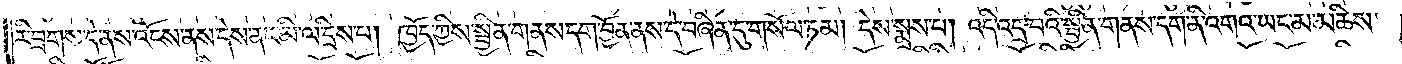རི་བྲགས་དེ་ནས་འོངས་ནས་དེས་ནང་མི་ལ་དྲིས་པ། ཁྱོད་ཀྱིས་སྦྱིན་གནས་དག་བྱོན་ནས་དེ་བཞིན་དུ་གསོལ་ཏམ། དེས་སྨྲས་པ། འདི་འདྲ་བའི་སྦྱིན་གནས་དག་ནི་འགའ་ཡང་མ་མཆིས་
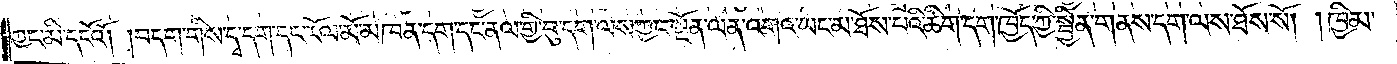ཀྱང་མི་དངོའོ། །བདག་གིས་དྭ་དག་དང་རོལ་མོ་མཁན་དག་དང་ནལ་གྱི་བུ་དག་ལས་ཀྱང་སྔོན་ལན་འགའ་ཡང་མ་ཐོས་པའི་ཚིག་དག་ཁྱོད་ཀྱི་སྦྱིན་གནས་དག་ལས་ཐོས་སོ། །ཁྱིམ་
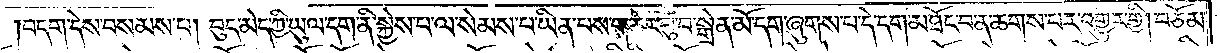བདག་དེས་བསམས་པ། བུད་མེད་ཀྱི་ཡུལ་དག་ནི་སྐྱེས་པ་ལ་སེམས་པ་ཡིན་པས་གཅེར་བུ་བ་སྒྲེན་མོ་དག་ཞུགས་པ་དེ་དག་མཐོང་བ་ན་ཆགས་པར་འགྱུར་གྱི། བཅོམ་
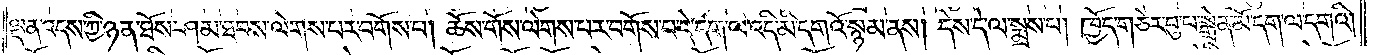ལྡན་འདས་ཀྱི་ཉན་ཐོས་ཤམ་ཐབས་ལེགས་པར་བགོས་པ། ཆོས་གོས་ལེགས་པར་བགོས་པ་དེ་དག་ལ་འདི་མི་དགའོ་སྙམ་ནས། དེས་དེ་ལ་སྨྲས་པ། ཁྱོད་གཅེར་བུ་པ་སྒྲེན་མོ་དག་ལ་དགའི།
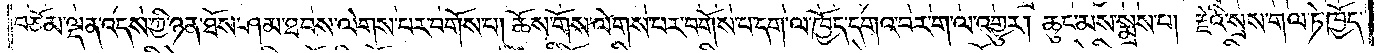བཅོམ་ལྡན་འདས་ཀྱི་ཉན་ཐོས་ཤམ་ཐབས་ལེགས་པར་བགོས་པ། ཆོས་གོས་ལེགས་པར་བགོས་པ་དག་ལ་ཁྱོད་དགའ་བར་ག་ལ་འགྱུར། ཆུང་མས་སྨྲས་པ། རྗེའི་སྲས་གལ་ཏེ་ཁྱོད་
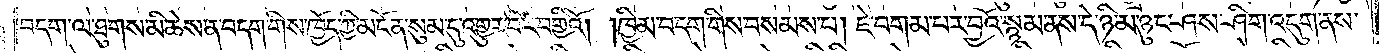བདག་ལ་ཐུགས་མི་ཆེས་ན་བདག་གིས་ཁྱོད་ཀྱི་མངོན་སུམ་དུ་འགྱུར་བར་བགྱིའོ། །ཁྱིམ་བདག་གིས་བསམས་པ། ཇེ་བགམ་པར་བྱའོ་སྙམ་ནས་དེ་ཉི་མ་ཉུང་ཤས་ཤིག་འདུག་ནས་
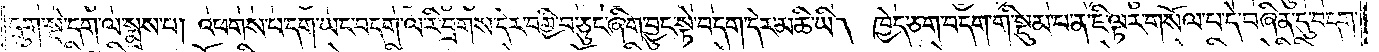དྲུག་སྡེ་དག་ལ་སྨྲས་པ། འཕགས་པ་དག་ཡང་བདག་ལ་རི་བྲགས་དེར་བགྱི་བ་ཅུང་ཞིག་བྱུང་སྟེ་བདག་དེར་མཆི་ཡི། ཁྱེད་ཅག་བདག་གི་སྡུམ་པ་ན་ཇི་ལྟར་གསོལ་བ་དེ་བཞིན་དུ་བདག་
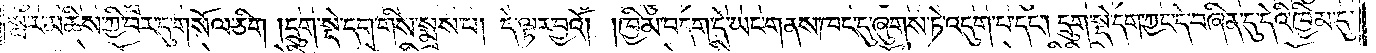སླར་མཆིས་ཀྱི་བར་དུ་གསོལ་ཅིག །དྲུག་སྡེ་དག་གིས་སྨྲས་པ། དེ་ལྟར་བྱའོ། །ཁྱིམ་བདག་དེ་ཡང་གནས་ཁང་དུ་ཞུགས་ཏེ་འདུག་པ་དང༌། དྲུག་སྡེ་དག་ཀྱང་དེ་བཞིན་དུ་དེའི་ཁྱིམ་དུ་
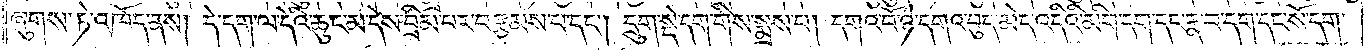ཞུགས་ཏེ་འཁོད་ནས། དེ་དག་ལ་དེའི་ཆུང་མ་དེས་བྲིམ་པར་བརྩམས་པ་དང༌། དྲུག་སྡེ་དག་གིས་སྨྲས་པ། དགའ་བོ་ཉེ་དགའ་བུད་མེད་འདིའི་མིག་དག་དང་རྣ་བ་དག་དང་སོ་དག་
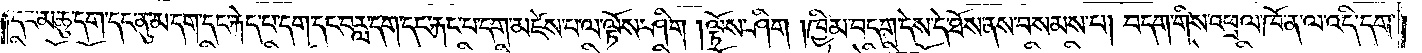དང་མཆུ་དག་དང་ནུ་མ་དག་དང་རྐེད་པ་དག་དང་བརླ་དག་དང་རྐང་པ་དག་མཛེས་པ་ལ་ལྟོས་ཤིག །ལྟོས་ཤིག །ཁྱིམ་བདག་དེས་དེ་ཐོས་ནས་བསམས་པ། བདག་གིས་འཕྲལ་ཁོ་ན་ལ་འདི་དག་
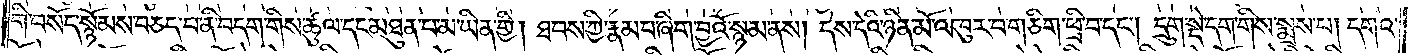གི་བསོད་སྙོམས་བཅད་པ་ནི་བདག་གིས་ཚུལ་དང་མཐུན་པ་མ་ཡིན་གྱི། ཐབས་ཀྱི་རྣམ་པ་ཞིག་བྱའོ་སྙམ་ནས། དེས་དེའི་ཉིན་མོ་འཁུར་བ་གཅིག་ཕྲི་བ་དང༌། དྲུག་སྡེ་དག་གིས་སྨྲས་པ། དགའ་
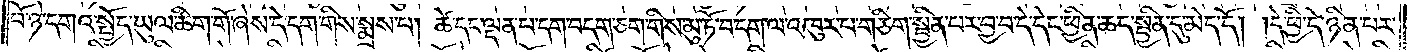བོ་ཉེ་དགའ་སྤྱོད་ཡུལ་ཚིག་གོ་ཞེས་དེ་དག་གིས་སྨྲས་པ། ཚེ་དང་ལྡན་པ་དག་བདག་ཅག་གིས་མུ་ཏོ་བ་དག་ལ་འཁུར་པ་གཅིག་སྦྱིན་པར་བྱ་བ་དེ་དེང་ཕྱིན་ཆད་སྦྱིན་དུ་མེད་དོ། །དེ་ཕྱི་དེ་ཉིན་པར་
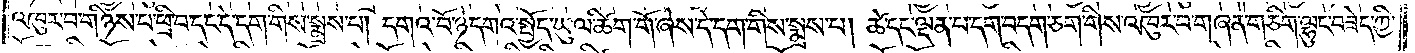འཁུར་བ་གཉིས་པ་ཕྲི་བ་དང་དེ་དག་གིས་སྨྲས་པ། དགའ་བོ་ཉེ་དགའ་སྤྱོད་ཡུལ་ཚིག་གོ་ཞེས་དེ་དག་གིས་སྨྲས་པ། ཚེ་དང་ལྡན་པ་དག་བདག་ཅག་གིས་འཁུར་བ་གཞན་གཅིག་ལྷུང་བཟེད་ཀྱི་
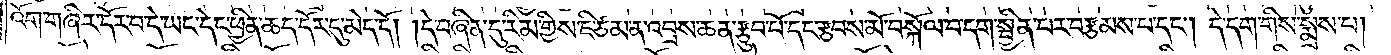འོག་གཞིར་དོར་བ་དེ་ཡང་དེང་ཕྱིན་ཆད་དོར་དུ་མེད་དོ། །དེ་བཞིན་དུ་རིམ་གྱིས་ཇི་ཙམ་ན་འབྲས་ཆན་རྩུབ་པོ་དང་རྩབས་མོ་བསྐོལ་བ་དག་སྦྱིན་པར་བརྩམས་པ་དང༌། དེ་དག་གིས་སྨྲས་པ།
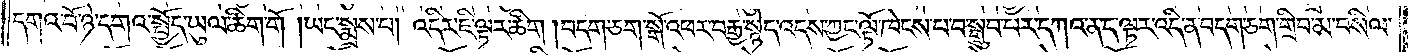དགའ་བོ་ཉེ་དགའ་སྤྱོད་ཡུལ་ཚིག་གོ །ཡང་སྨྲས་པ། འདིར་ཇི་ལྟར་ཚིག །བདག་ཅག་སྒོ་འཕར་བརྒྱ་སྙེད་འདས་ཀྱང་ལྟོ་ཁེངས་པ་བ་སྒྲུབ་པར་དཀའ་ན་ད་ལྟར་འདི་ན་བདག་ཅག་གྲིབ་མ་བསིལ་
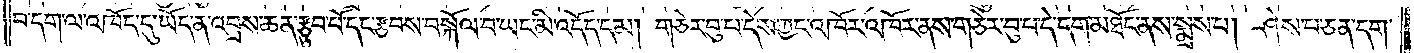བ་དག་ལ་འཁོད་དུ་ཡོད་ན་འབྲས་ཆན་རྩུབ་པོ་དང་རྩབས་བསྐོལ་བ་ཡང་མི་འདོད་དམ། གཅེར་བུ་པ་དེས་ཀྱང་འཁོར་འཁོར་ནས་གཅེར་བུ་པ་དེ་དག་མཐོང་ནས་སྨྲས་པ། ཤེས་པ་ཅན་དག་
